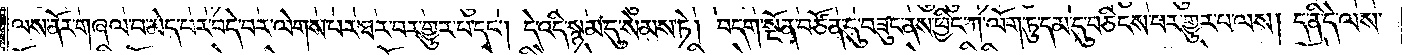ལས་ནོར་གཞལ་བ་མེད་པར་བདེ་བར་ལེགས་པར་ཐར་བར་གྱུར་པ་དང༌། དེ་འདི་སྙམ་དུ་སེམས་ཏེ། བདག་སྔོན་བཙོན་དུ་བཟུང་ནས་ཕྱིང་ཀ་ལོག་ཏུ་དམ་དུ་བཅིངས་པར་གྱུར་པ་ལས། ད་ནི་དེ་ལས་
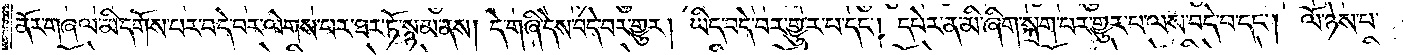ནོར་གཞལ་མི་དགོས་པར་བདེ་བར་ལེགས་པར་ཐར་ཏོ་སྙམ་ནས། དེ་གཞི་དེས་བདེ་བར་གྱུར། ཡིད་བདེ་བར་གྱུར་པ་དང༌། དཔེར་ན་མི་ཞིག་སྐྲག་པར་གྱུར་པ་ལས་བདེ་བ་དང༌། ལོ་ཉེས་པ་
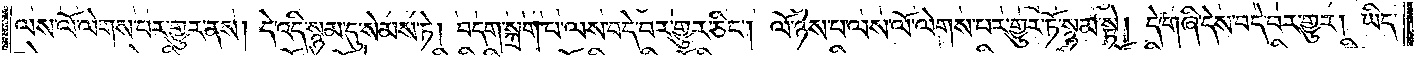ལས་ལོ་ལེགས་པར་གྱུར་ནས། དེ་འདི་སྙམ་དུ་སེམས་ཏེ། བདག་སྐྲག་པ་ལས་བདེ་བར་གྱུར་ཅིང༌། ལོ་ཉེས་པ་ལས་ལོ་ལེགས་པར་གྱུར་ཏོ་སྙམ་སྟེ། དེ་གཞི་དེས་བདེ་བར་གྱུར། ཡིད་
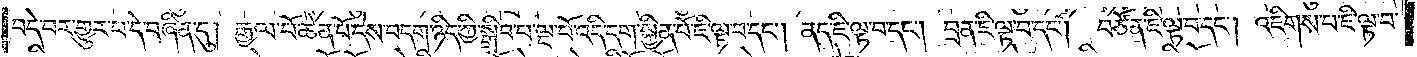བདེ་བར་གྱུར་པ་དེ་བཞིན་དུ། རྒྱལ་པོ་ཆེན་པོ་དེས་བདག་ཉིད་ཀྱི་སྒྲིབ་པ་ལྔ་པོ་འདི་དག་སྐྱིན་པོ་ཇི་ལྟ་བ་དང༌། ནད་ཇི་ལྟ་བ་དང༌། བྲན་ཇི་ལྟ་བ་དང༌། བཙོན་ཇི་ལྟ་བ་དང༌། འཇིགས་པ་ཇི་ལྟ་བ་
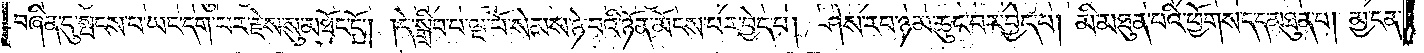བཞིན་དུ་སྤངས་པ་ཡང་དག་པར་རྗེས་སུ་མཐོང་ངོ༌། །དེ་སྒྲིབ་པ་ལྔ་པོ་སེམས་ཉེ་བའི་ཉོན་མོངས་པར་བྱེད་པ། ཤེས་རབ་ཉམ་ཆུང་བར་བྱེད་པ། མི་མཐུན་པའི་ཕྱོགས་དང་མཐུན་པ། མྱ་ངན་
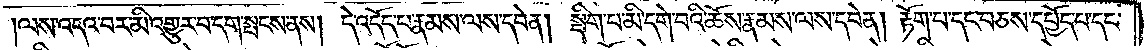།ལས་འདའ་བར་མི་འགྱུར་བ་དག་སྤངས་ནས། དེ་འདོད་པ་རྣམས་ལས་དབེན། སྡིག་པ་མི་དགེ་བའི་ཆོས་རྣམས་ལས་དབེན། རྟོག་པ་དང་བཅས་དཔྱོད་པ་དང་
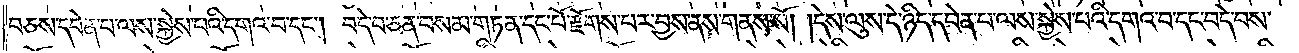བཅས་དབེན་པ་ལས་སྐྱེས་པའི་དགའ་བ་དང༌། བདེ་བ་ཅན་བསམ་གཏན་དང་པོ་རྫོགས་པར་བྱས་ནས་གནས་སོ། །དེས་ལུས་དེ་ཉིད་དབེན་པ་ལས་སྐྱེས་པའི་དགའ་བ་དང་བདེ་བས་
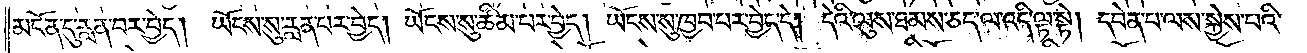མངོན་དུ་རླན་པར་བྱེད། ཡོངས་སུ་རླན་པར་བྱེད། ཡོངས་སུ་ཚིམ་པར་བྱེད། ཡོངས་སུ་ཁྱབ་པར་བྱེད་དེ། དེའི་ལུས་ཐམས་ཅད་ལ་འདི་ལྟ་སྟེ། དབེན་པ་ལས་སྐྱེས་པའི་
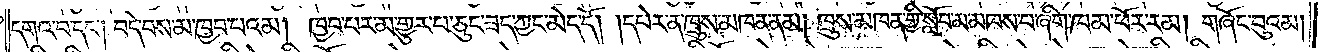དགའ་བ་དང༌། བདེ་བས་མ་ཁྱབ་པའམ། ཁྱབ་པར་མ་གྱུར་པ་ཅུང་ཟད་ཀྱང་མེད་དོ། །དཔེར་ན་ཁྲུས་མཁན་ནམ། ཁྲུས་མཁན་གྱི་སློབ་མ་མཁས་པ་ཞིག་ཁམ་ཕོར་རམ། གཞོང་བུའམ།
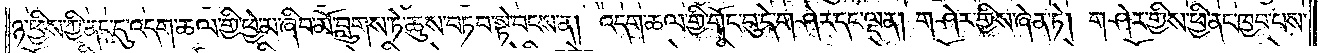ཉ་ཕྱིས་ཀྱི་ནང་དུ་འདག་ཆལ་གྱི་ཕྱེ་མ་ཞིབ་མོ་བླུགས་ཏེ་ཆུས་བཏབ་སྟེ་བངས་ན། འདག་ཆལ་གྱི་གོང་བུ་དེ་གཤེར་དང་ལྡན། གཤེར་གྱིས་ཞེན་ཏེ། གཤེར་གྱིས་ཕྱི་ནང་ཁྱབ་པས་
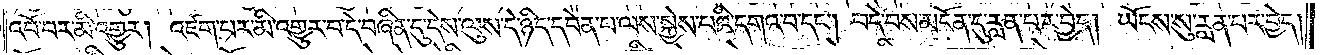འབོ་བར་མི་འགྱུར། འཛག་པར་མི་འགྱུར་བ་དེ་བཞིན་དུ་དེས་ལུས་དེ་ཉིད་དབེན་པ་ལས་སྐྱེས་པའི་དགའ་བ་དང༌། བདེ་བས་མངོན་དུ་རླན་པར་བྱེད། ཡོངས་སུ་རླན་པར་བྱེད།
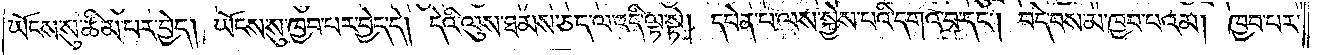ཡོངས་སུ་ཚིམ་པར་བྱེད། ཡོངས་སུ་ཁྱབ་པར་བྱེད་དེ། དེའི་ལུས་ཐམས་ཅད་ལ་འདི་ལྟ་སྟེ། དཔེན་པ་ལས་སྐྱེས་པའི་དགའ་བ་དང༌། བདེ་བས་མ་ཁྱབ་པའམ། ཁྱབ་པར་
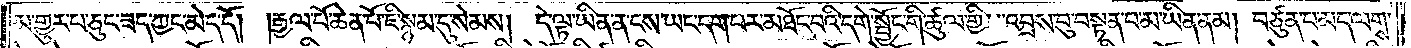མ་གྱུར་པ་ཅུང་ཟད་ཀྱང་མེད་དོ།  །རྒྱལ་པོ་ཆེན་པོ་ཇི་སྙམ་དུ་སེམས། དེ་ལྟ་ཡིན་ན་ངས་ཡང་དག་པར་མཐོང་བའི་དགེ་སྦྱོང་གི་ཚུལ་གྱི་འབྲས་བུ་བསྟན་པ་མ་ཡིན་ནམ། བཙུན་པ་མད་ལགས་
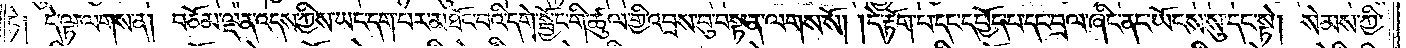ཏེ། དེ་ལྟ་ལགས་ན། བཅོམ་ལྡན་འདས་ཀྱིས་ཡང་དག་པར་མཐོང་བའི་དགེ་སྦྱོང་གི་ཚུལ་གྱི་འབྲས་བུ་བསྟན་ལགས་སོ། །དེ་རྟོག་པ་དང་དཔྱོད་པ་དང་བྲལ་ཞིང་ནང་ཡོངས་སུ་དང་སྟེ། སེམས་ཀྱི་
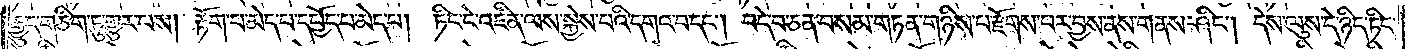རྒྱུད་གཅིག་ཏུ་གྱུར་པས། རྟོག་པ་མེད་པ་དཔྱོད་པ་མེད་པ། ཏིང་ངེ་འཛིན་ལས་སྐྱེས་པའི་དགའ་བ་དང༌། བདེ་བ་ཅན་བསམ་གཏན་གཉིས་པ་རྫོགས་པར་བྱས་ནས་གནས་ཤིང༌། དེས་ལུས་དེ་ཉིད་ཏིང་
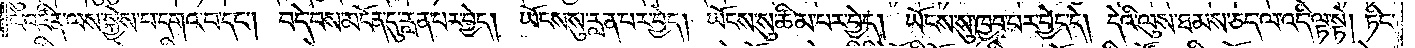ངེ་འཛིན་ལས་སྐྱེས་པ་དགའ་བ་དང༌། བདེ་བས་མངོན་དུ་རླན་པར་བྱེད། ཡོངས་སུ་རླན་པར་བྱེད། ཡོངས་སུ་ཚིམ་པར་བྱེད། ཡོངས་སུ་ཁྱབ་པར་བྱེད་དེ། དེའི་ལུས་ཐམས་ཅད་ལ་འདི་ལྟ་སྟེ། ཏིང་
